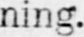ning.
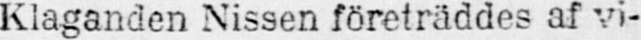Klaganden Nissen företräddes af vi-
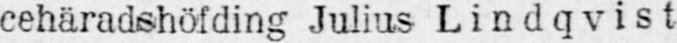cehäradshöfding Julius Lindqvist
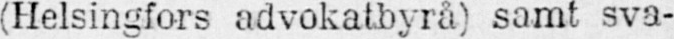(Helsingfors advokatbyrå) samt sva-
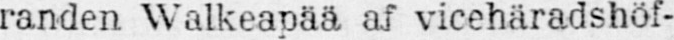randen Walkeapää af vicehäradshöf-
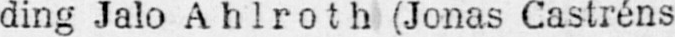ding Jalo Ahlroth (Jonas Castréns
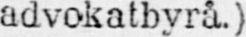advokatbyrå.)
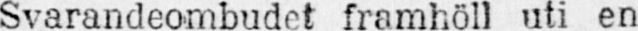Svarandeombudet framhöll uti en
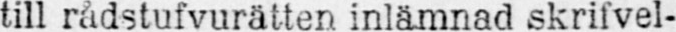till rådstufvurätten inlämnad skrifvel-
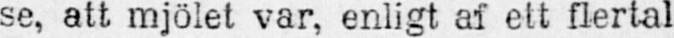se, att mjölet var, enligt af ett flertal
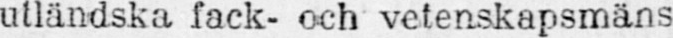utländska fack- och vetenskapsmäns
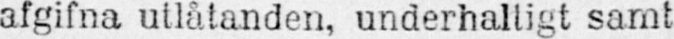afgifna utlåtanden, underhaltigt samt
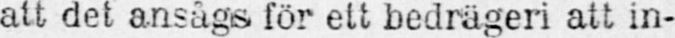att det ansågs för ett bedrägeri att in-
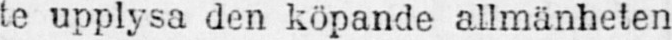te upplysa den köpande allmänheten
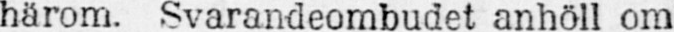härom. Svarandeombudet anhöll om
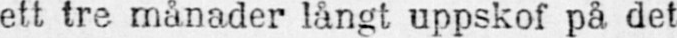ett tre månader långt uppskof på det
